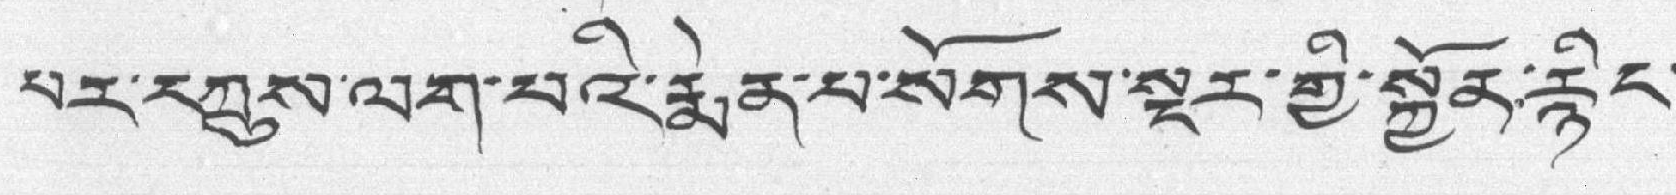པར་དཀྲུས་ལག་པའི་རྨེན་པ་སོགས་སྔར་གྱི་སྐྱོན་རྙིང་
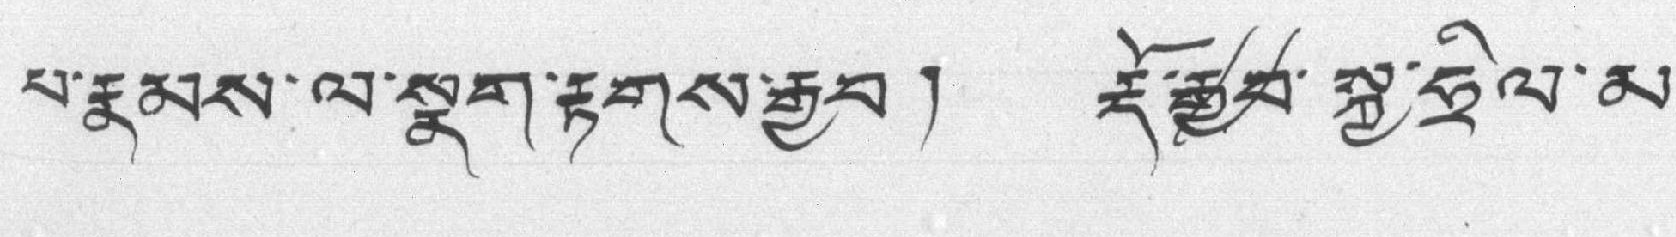པ་རྣམས་ལ་སྣག་རྟགས་རྒྱབ། རྡོ་རྒྱབ་སྐྱ་ཧྲིལ་མ་
